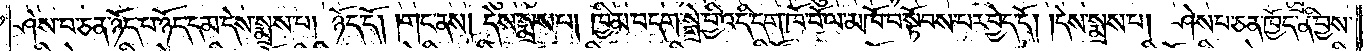ཤེས་པ་ཅན་ཉོད་པ་ཉོད་དམ་དེས་སྨྲས་པ། ཉོད་དོ། །གང་ནས། དེས་སྨྲས་པ། ཁྱིམ་བདག་སྒྲེ་བྱི་འདི་དག་ཁོ་བོ་ལ་མཁོ་བོ་སྟོབས་པར་བྱེད་དོ། །དེས་སྨྲས་པ། ཤེས་པ་ཅན་ཁྱོད་ནི་བྱིས་
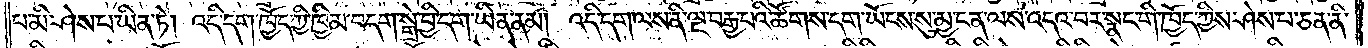པ་མི་ཤེས་པ་ཡིན་ཏེ། འདི་དག་ཁྱོད་ཀྱི་ཁྱིམ་བདག་སྒྲེ་བྱི་དག་ཡིན་ནམ། འདི་དག་ལས་ནི་ལྔ་བརྒྱ་པའི་ཚོགས་དག་ཡོངས་སུ་མྱ་ངན་ལས་འདའ་བར་སྣང་གི་ཁྱོད་ཀྱིས་ཤེས་པ་ཅན་ནི་
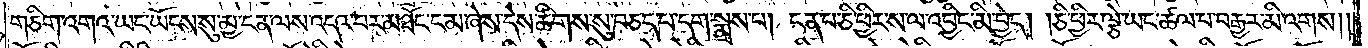གཅིག་འགའ་ཡང་ཡོངས་སུ་མྱ་ངན་ལས་འདའ་བར་མཐོང་ངམ་ཞེས་དེས་ཚིགས་སུ་བཅད་པ་དག་སྨྲས་པ། ངན་པ་ཅི་ཕྱིར་ས་ལ་འབྱིང་མི་བྱེད། །ཅི་ཕྱིར་ལྕེ་ཡང་ཚལ་བ་བརྒྱར་མི་འགས། །
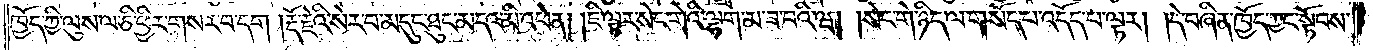ཁྱོད་ཀྱི་ལུས་ལ་ཅི་ཕྱིར་གསར་བ་དག །རྡོ་རྗེའི་སེར་བ་མདུང་ཐུང་མདའ་མི་འཕེན། །ཇི་ལྟར་སེང་གེའི་ལྷག་མ་ཟ་བའི་ཝ། །སེང་གེ་ཉིད་ལ་གསོད་པ་འདོད་པ་ལྟར། །དེ་བཞིན་ཁྱོད་ཀྱང་སྟོབས་
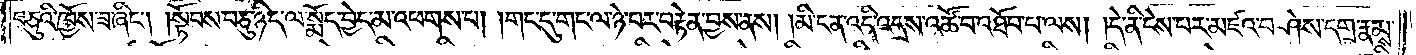བཅུའི་ཁྱོས་ཟ་ཞིང༌། །སྟོབས་བཅུ་ཉིད་ལ་སྨོད་བྱེད་མ་འཕགས་པ། །གང་དུ་གང་ལ་ཉེ་བར་བརྟེན་བྱས་ནས། །མི་ངན་འདི་འདྲས་འཚོ་བ་འཐོབ་པ་ལས། །དེ་ནི་ངེས་པར་མཛའ་བཤེས་དགྲ་རྣམས་
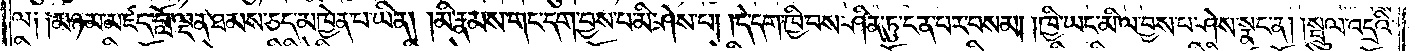ལ༑ ༑མཉམ་མཛད་བློ་ལྡན་ཐམས་ཅད་མཁྱེན་པ་ཡིན། །མི་རྣམས་གང་དག་བྱས་པ་མི་ཤེས་པ། །དེ་དག་ཁྱི་བས་ཤིན་ཏུ་ངན་པར་བསམ། །ཁྱི་ཡང་མི་ལ་བྱས་པ་ཤེས་སྣང་ན། །སྦྲུལ་འདྲའི་
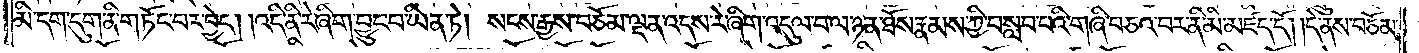མི་དག་དུག་ནི་གཏོང་བར་བྱེད། །འདི་ནི་རེ་ཞིག་བྱུང་བ་ཡིན་ཏེ། སངས་རྒྱས་བཅོམ་ལྡན་འདས་རེ་ཞིག་འདུལ་བ་ལ་ཉན་ཐོས་རྣམས་ཀྱི་བསླབ་པའི་གཞི་བཅའ་བར་ནི་མི་མཛད་དོ། །དེ་ནས་བཅོམ་
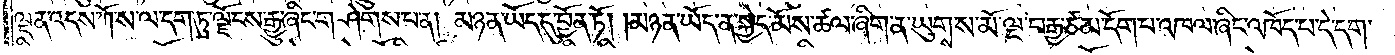ལྡན་འདས་ཀོ་ས་ལ་དག་ཏུ་ལྗོངས་རྒྱུ་ཞིང་གཤེགས་པ་ན། མཉན་ཡོད་དུ་བྱོན་ཏོ། །མཉན་ཡོད་ན་སྐྱེད་མོས་ཚལ་ཞིག་ན་ཡུགས་ས་མོ་ལྔ་བརྒྱ་ཙམ་དོག་པ་འཁལ་ཞིང་འཁོད་པ་དེ་དག་
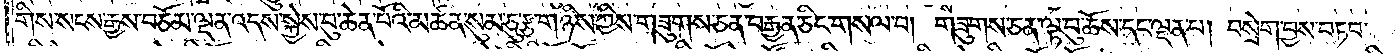གིས་སངས་རྒྱས་བཅོམ་ལྡན་འདས་སྐྱེས་བུ་ཆེན་པོའི་མཚན་སུམ་ཅུ་རྩ་གཉིས་ཀྱིས་གཟུགས་ཅན་བརྒྱན་ཅིང་གསལ་བ། གཟུགས་ཅན་ལྟ་བུ་ཆོས་དང་ལྡན་པ། བསྲེག་བྱས་བཏབ་
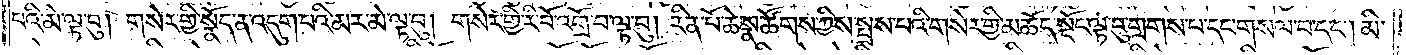བའི་མེ་ལྟ་བུ། གསེར་གྱི་སྣོད་ན་འདུག་པའི་མར་མེ་ལྟ་བུ། གསེར་གྱི་རི་བོ་འགྲོ་བ་ལྟ་བུ། རིན་པོ་ཆེ་སྣ་ཚོགས་ཀྱིས་སྤྲས་པའི་གསེར་གྱི་མཆོད་སྡོང་ལྟ་བུ་གྲགས་པ་དང་གསལ་བ་དང༌། མི་
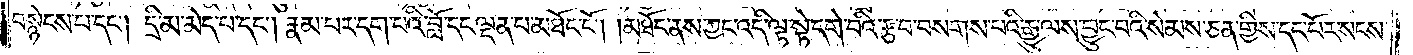བསྙེངས་པ་དང༌། དྲི་མ་མེད་པ་དང༌། རྣམ་པར་དག་པའི་བློ་དང་ལྡན་པ་མཐོང་ངོ༌། །མཐོང་ནས་ཀྱང་འདི་ལྟ་སྟེ་དགེ་བའི་རྩ་བ་བསགས་པའི་རྒྱུ་ལས་བྱུང་བའི་སེམས་ཅན་གྱིས་དང་པོར་སངས་
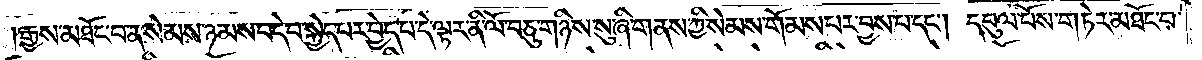རྒྱས་མཐོང་བ་ན་སེམས་ཉམས་བདེ་བ་སྐྱེད་པར་བྱེད་པ་དེ་ལྟར་ནི་ལོ་བཅུ་གཉིས་སུ་ཞི་གནས་ཀྱི་སེམས་གོམས་པར་བྱས་པ་དང༌། དབུལ་པོས་གཏེར་མཐོང་བ་
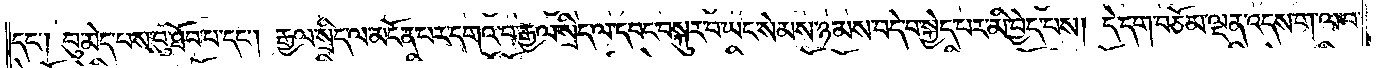དང༌། བུ་མེད་པས་བུ་ཐོབ་པ་དང༌། རྒྱལ་སྲིད་ལ་མངོན་པར་དགའ་བ་རྒྱལ་སྲིད་ལ་དབང་བསྐུར་བ་ཡང་སེམས་ཉམས་བདེ་བ་སྐྱེད་པར་མི་བྱེད་པས། དེ་དག་བཅོམ་ལྡན་འདས་ག་ལ་བ་
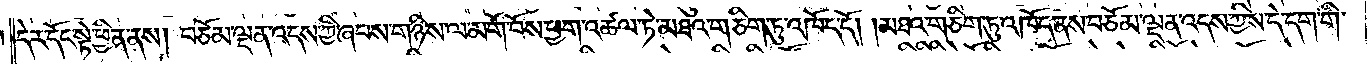དེར་དོང་སྟེ་ཕྱིན་ནས། བཅོམ་ལྡན་འདས་ཀྱི་ཞབས་གཉིས་ལ་མགོ་བོས་ཕྱག་འཚལ་ཏེ་མཐའ་གཅིག་ཏུ་འཁོད་དོ། །མཐའ་གཅིག་ཏུ་འཁོད་ནས་བཅོམ་ལྡན་འདས་ཀྱིས་དེ་དག་གི་
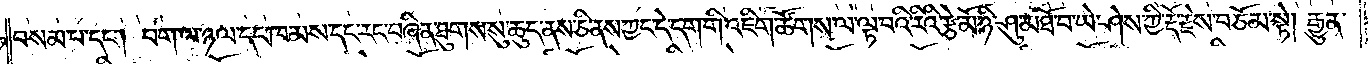བསམ་པ་དང༌། བག་ལ་ཉལ་དང་ཁམས་དང་རང་བཞིན་ཐུགས་སུ་ཆུད་ནས་ཅི་ནས་ཀྱང་དེ་དག་གི་འཇིག་ཚོགས་ལ་ལྟ་བའི་རིའི་རྩེ་མོ་ཉི་ཤུ་མཐོ་བ་ཡེ་ཤེས་ཀྱི་རྡོ་རྗེས་བཅོམ་སྟེ། རྒྱུན་
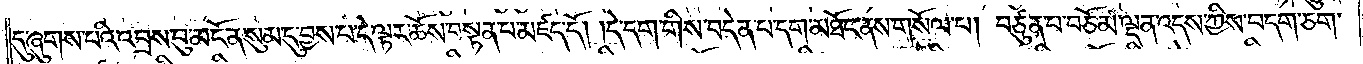དུ་ཞུགས་པའི་འབྲས་བུ་མངོན་སུམ་དུ་བྱས་པ་དེ་ལྟར་ཆོས་བསྟན་པ་མཛད་དོ། །དེ་དག་གིས་བདེན་པ་དག་མཐོང་ནས་གསོལ་བ། བཙུན་པ་བཅོམ་ལྡན་འདས་ཀྱིས་བདག་ཅག་
